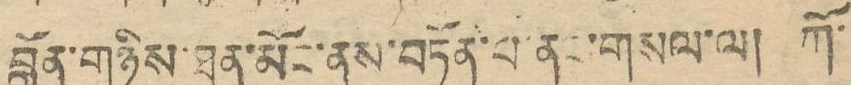བློན་གཉིས་ཐུན་མོང་ནས་བཏོན་པ་ནང་གསལ་ལ། ཀོ་
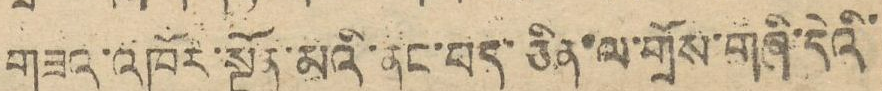གཟའ་འཁོར་སྔོན་མའི་ནང་པད་ཅིན་ལ་གྲོས་གཞི་དེའི་
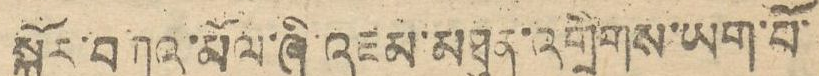སྐོར་བཀའ་མོལ་ཞི་འཇམ་མཐུན་འགྲིགས་ཡག་པོ་
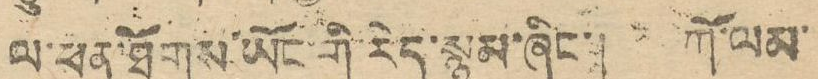ལ་ཕན་ཐོགས་ཡོང་གི་རེད་སྙམ་ཞིང་། ཀོ་ལམ་
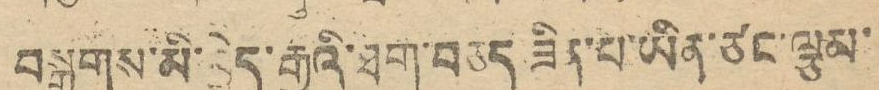བསྒྲགས་མི་བྱེད་རྒྱུའི་ཐག་བཅད་ཟིན་པ་ཡིན་ཙང་ལྕམ་
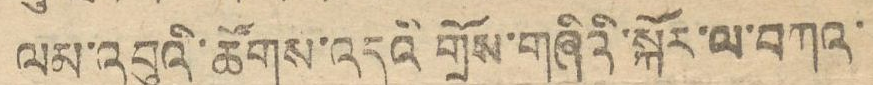ལམ་འབུའི་ཚོགས་འདུའི གྲོས་གཞིའི་སྐོར་ལ་བཀའ་
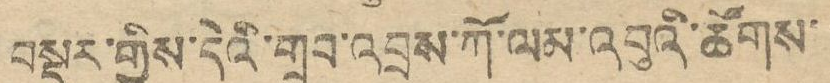བསྡུར་གྱིས་དེའི་གྲུབ་འབྲས་ཀོ་ལམ་འབུའི་ཚོགས་
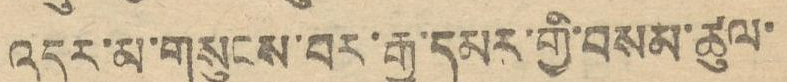འདུར་མ་གསུངས་བར་རྒྱ་དམར་གྱི་བསམ་ཚུལ་
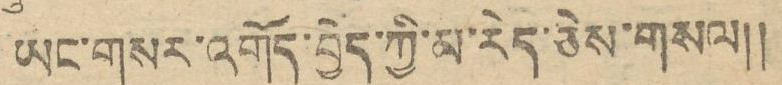ཡང་གསར་འགོད་བྱེད་ཀྱི་མ་རེད་ཅེས་གསལ།།
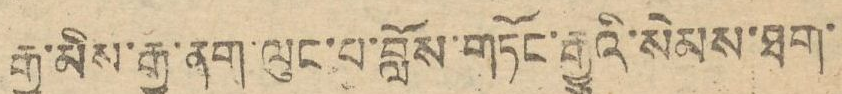རྒྱ་མིས་རྒྱ་ནག་ལུང་པ་བློས་གཏོང་རྒྱུའི་སེམས་ཐག་
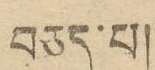བཅད་པ།
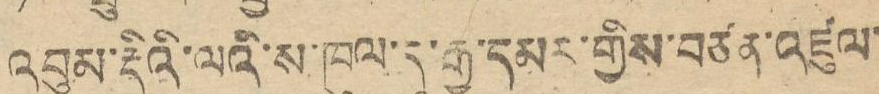འབུམ་རྡིའི་ལའི་ས་ཁུལ་དུ་རྒྱ་དམར་གྱིས་བཙན་འཛུལ་
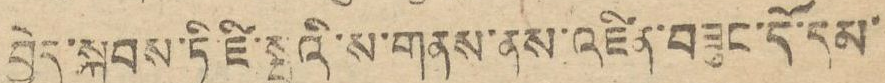བྱེད་སྐབས་ཏི་ཛི་སྤུའི་ས་གནས་ནས་འཛིན་བཟུང་དོ་དམ་
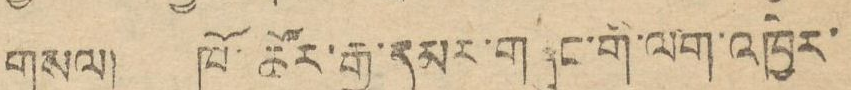གསལ། ཁོ་ཚོར་རྒྱ་དམར་གཞུང་གི་ལག་འཁྱེར་
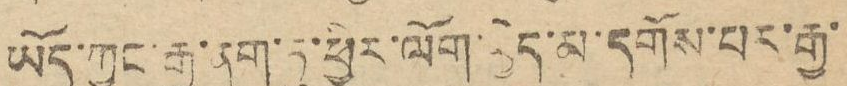ཡོད་ཀྱང་རྒྱ་ནག་ཏུ་ཕྱིར་ལོག་བྱེད་མ་དགོས་པར་རྒྱ་
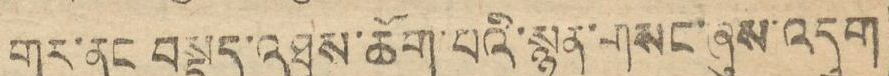གར་ནང བསྡད་འཐུས་ཆོག་པའི་སྙན་གསང་ཞུས་འདུག
